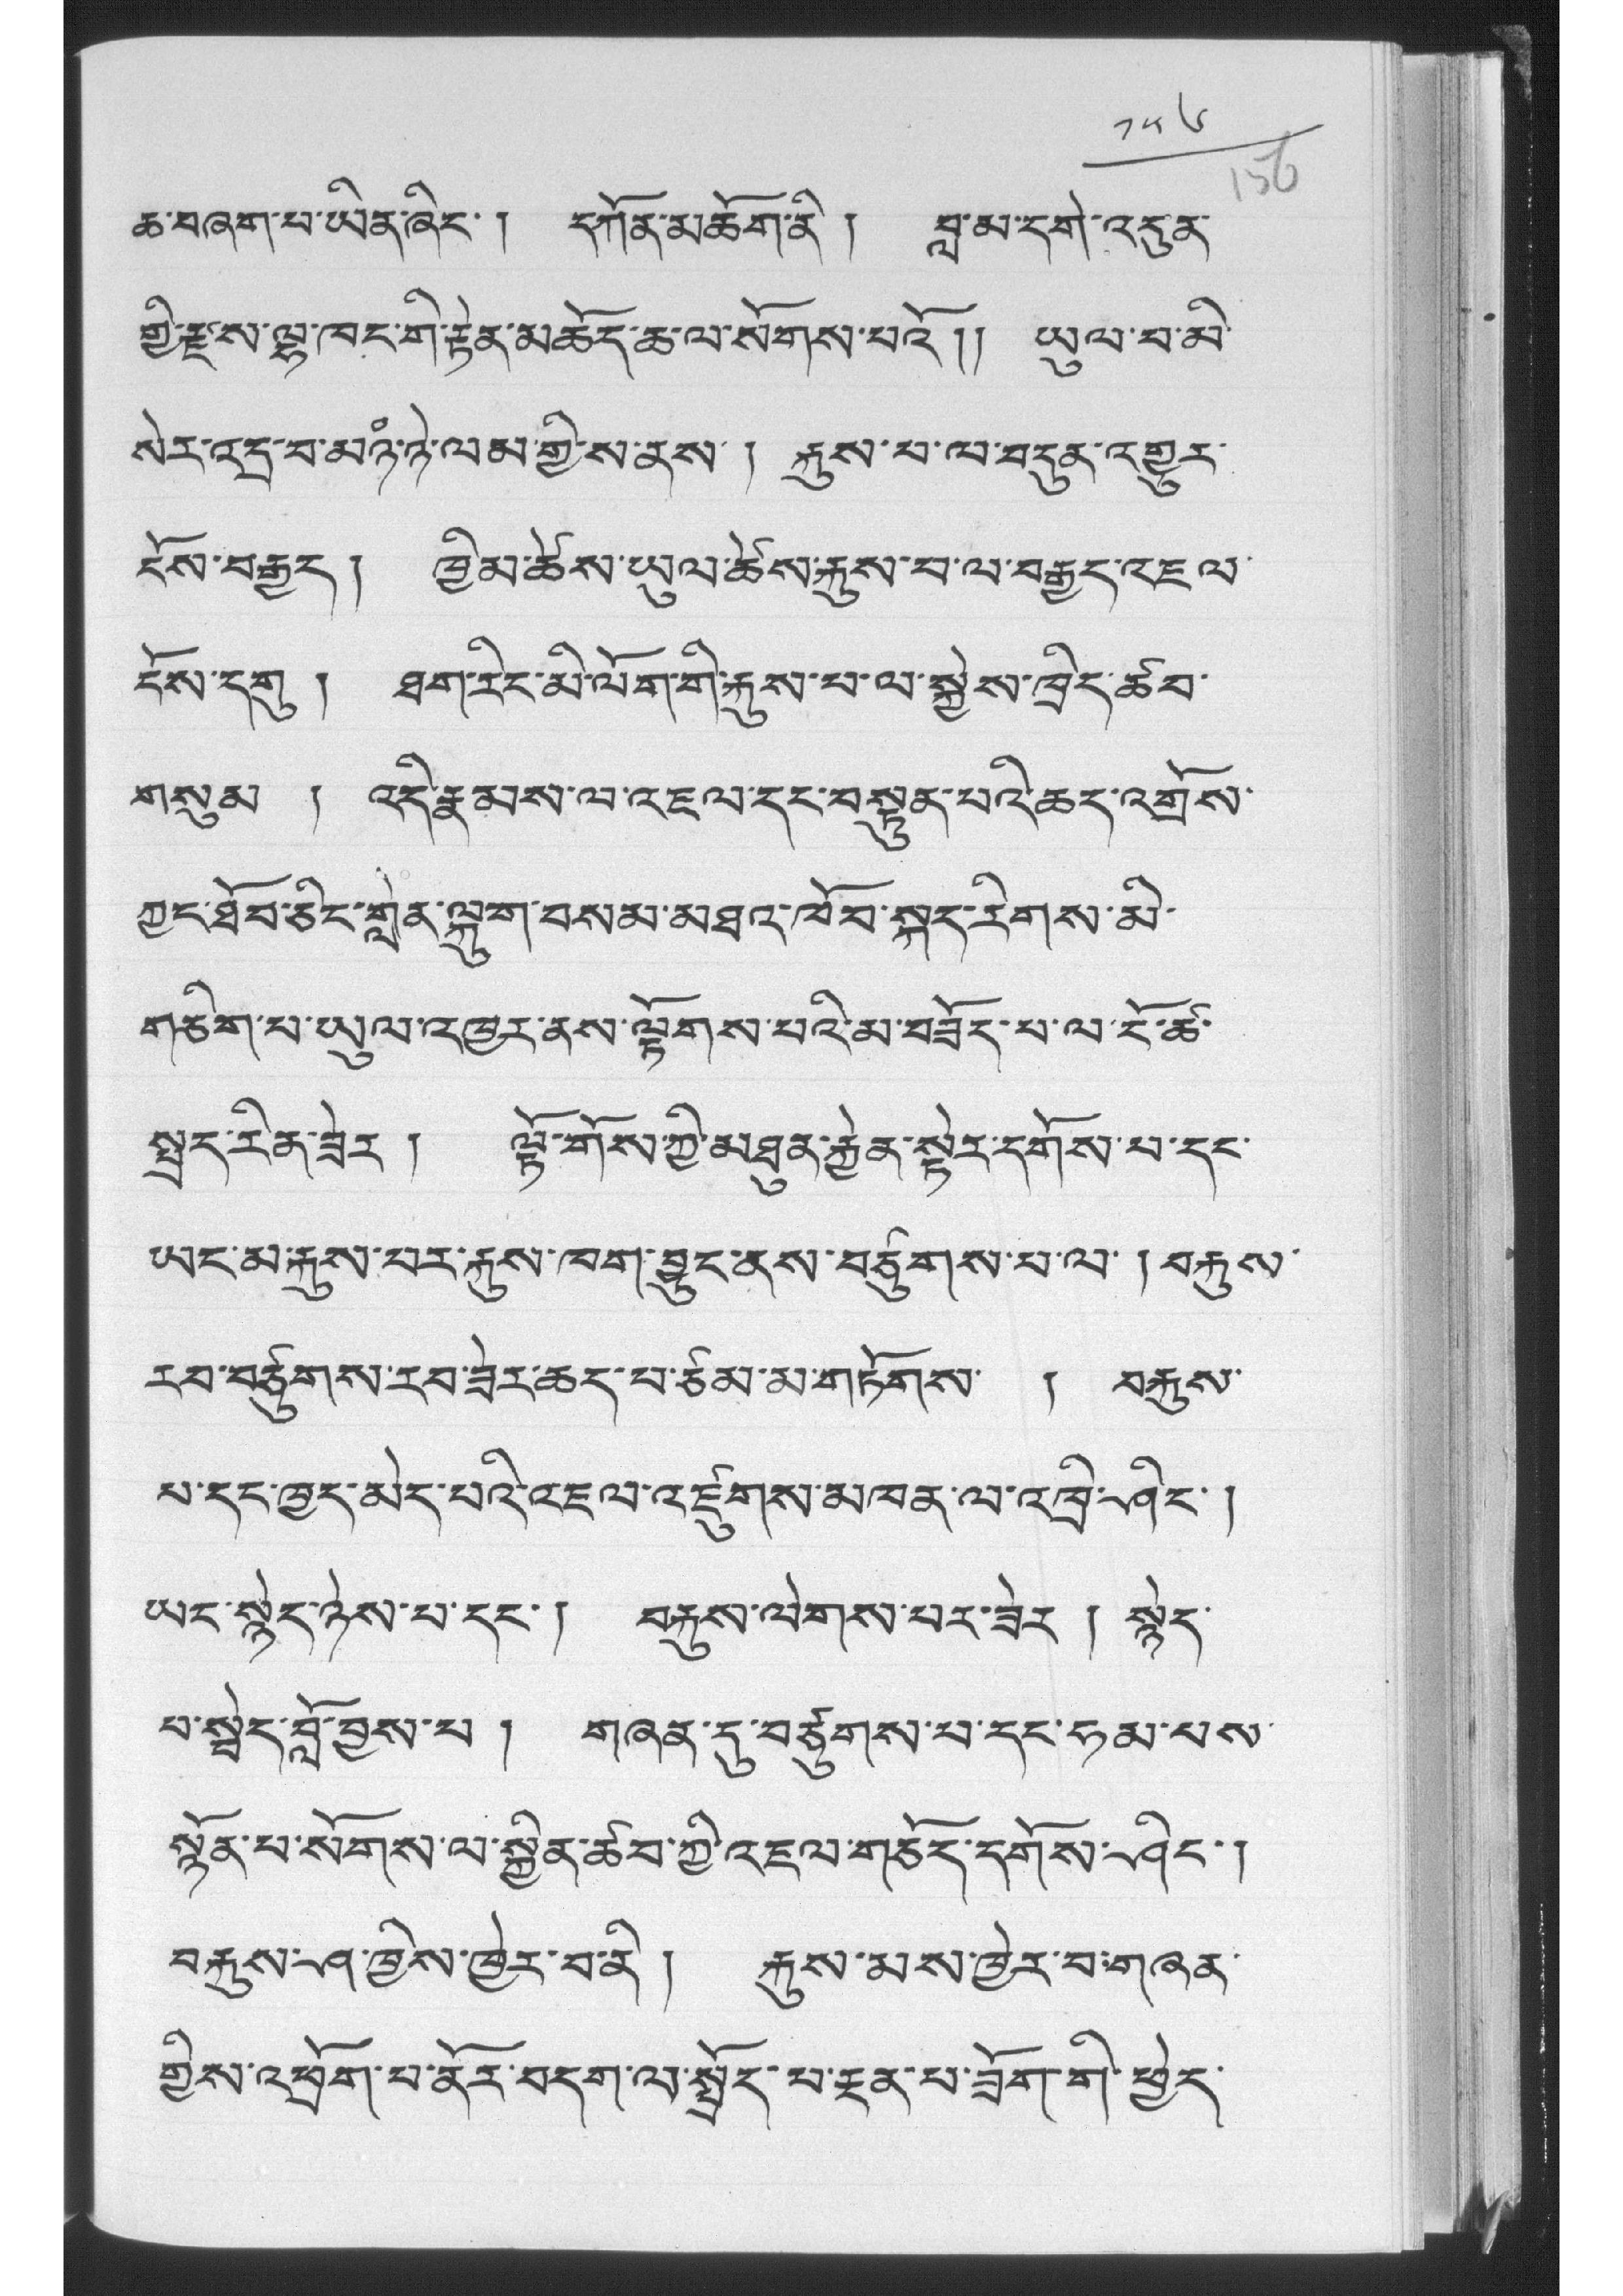༡༥༦
ཆ་བཞག་པ་ཡིན་ཞིང་། དཀོན་མཆོག་ནི ། བླ་མ་དགེ་འདུན་
གྱི་རྫས་ལྷ་ཁང་གི་རྟེན་མཆོད་ཆ་ལ་སོགས་པའོ།། ཡུལ་པ་མ་
སེར་འདྲ་བ་མཉཾ་ཉེ་ལམ་གྱི་ས་ནས་ ། རྐུས་པ་ལ་བདུན་འགྱུར་
ངོས་བརྒྱད། ཁྱིམ་ཚེས་ཡུལ་ཚེས་རྐུས་པ་ལ་བརྒྱད་འཇལ་
ངོས་དགུ ། ཐག་རིང་མི་ལོག་གི་རྐུས་པ་ལ་སྐྱེས་ཁྲིད་ཚབ་
གསུམ ། འདི་རྣམས་ལ་འཇལ་དང་བསྟུན་པའི་ཆད་འགྲོས་
ཀྱང་ཐོབ་ཅིང་གླེན་ལྐུག་བསམ་མཐའ་ཁོབ་སྐད་རིགས་མི་
གཅིག་པ་ཡུལ་འཁྱར་ནས་ལྟོགས་པའི་མ་བཟོད་པ་ལ་ངོ་ཚ་
སྤྲད་རིན་ཟེར ། ལྟོ་གོས་ཀྱི་མཐུན་རྐྱེན་སྟེར་དགོས་པ་དང་
ཡང་མ་རྐུས་པར་རྐུས་ཁག་བྱུང་ནས་བཙུགས་པ་ལ་ ། བརྐུས་
རབ་བཙུགས་རབ་ཟེར་ཆད་པ་ཙམ་མ་གཏོགས་ ། བརྐུས་
པ་དང་ཁྱད་མེད་པའི་འཇལ་འཛུགས་མཁན་ལ་འཁྲི་ཤིང་།
ཡང་སྙེད་ཉེས་པ་དང་། བརྐུས་ལེགས་པར་ཟེར ། སྙེད་
པ་སྦེད་བློ་བྱས་པ ། གཞན་དུ་བཙུགས་པ་དང་ཧམ་པས་
སྙོན་པ་སོགས་ལ་སྐྱིན་ཚབ་ཀྱི་འཇལ་གཅོད་དགོས་ཤིང་།
བརྐུས་ཤ་ཁྱིས་ཁྱེར་བ་ནི། རྐུས་མས་ཁྱེར་བ་གཞན་
གྱིས་འཕྲོག་པ་ནོར་བདག་ལ་སྤྲོད་པ་རྔན་པ་ཟོག་གི་ཕྱེད་
